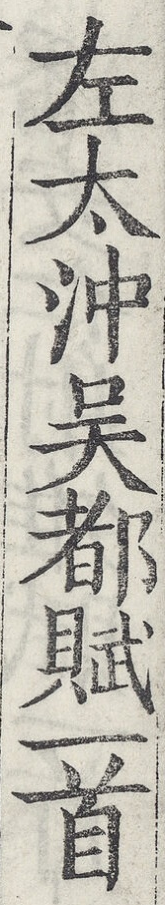左太沖吳都賦一首
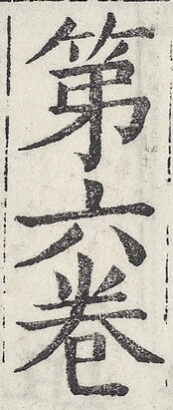第六卷
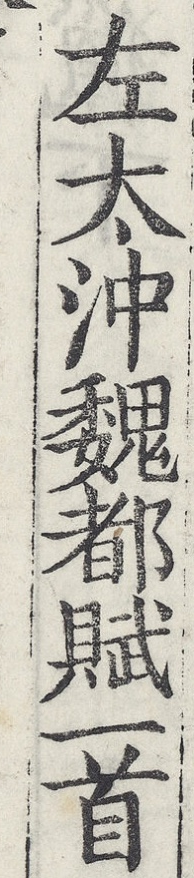左太沖魏都賦一首
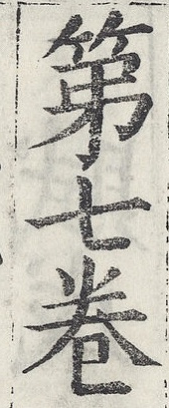第七卷
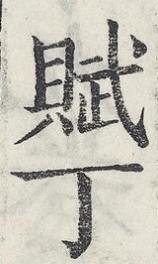賦丁
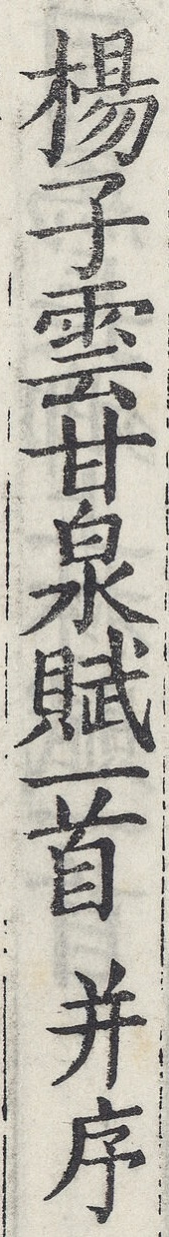楊子雲甘泉賦一首并序
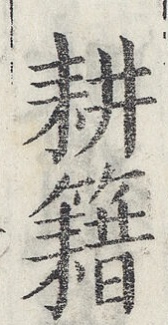耕籍
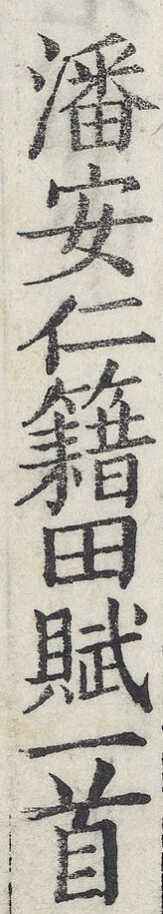潘安仁籍田賦一首
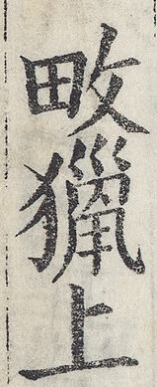畋獵上
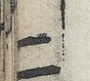二
